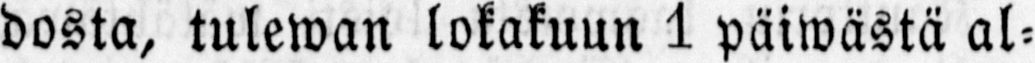dosta, tulewan lokakuun 1 päiwästä al-
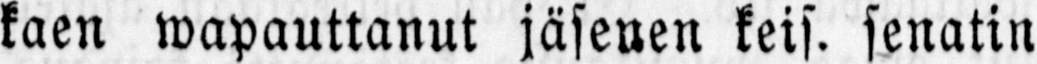kaen wapauttanut jäsenen keis. senatin
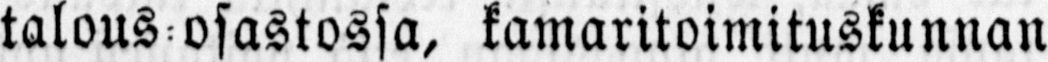talous osastossa, kamaritoimituskunnan
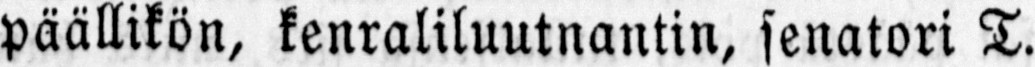päällikön, kenraliluutnantin, senatori T.
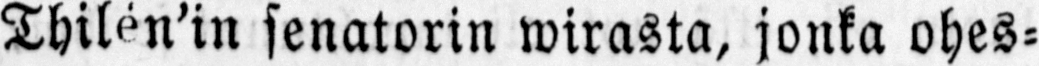Thilén'in senatorin wirasta, jonka ohes-
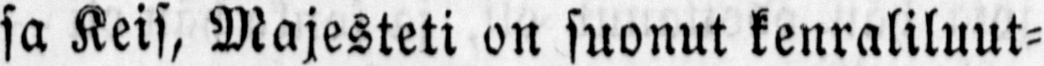sa Keis, Majesteti on suonut kenraliluut-
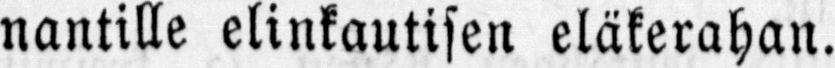nantille elinkautisen eläkerahan.
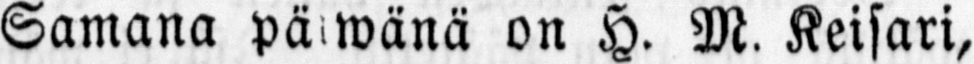Samana päiwänä on H. M. Keisari,
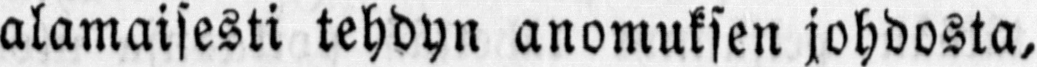alamaisesti tehdyn anomuksen johdosta,
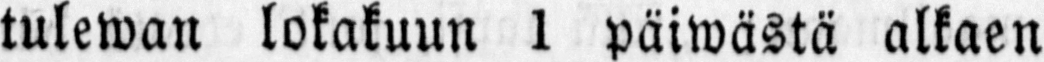tulewan lokakuun 1 päiwästä alkaen
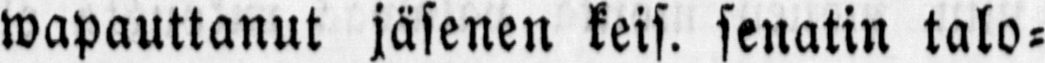wapauttanut jäsenen keis. senatin talo-
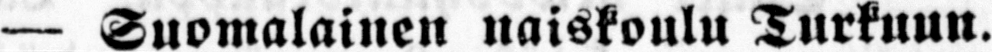— Suomalainen naiskoulu Turkuun.
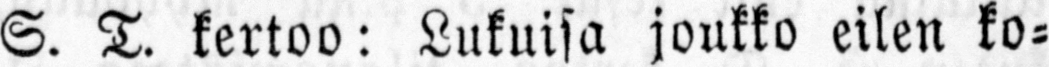S. T. kertoo: Lukuisa joukko eilen ko-
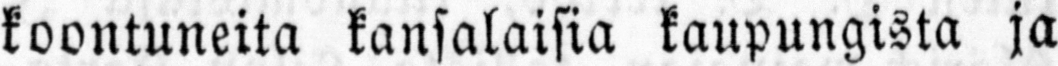koontuneita kansalaisia kaupungista ja
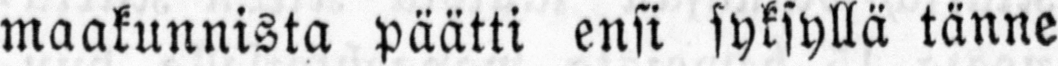maakunnista päätti ensi syksyllä tänne
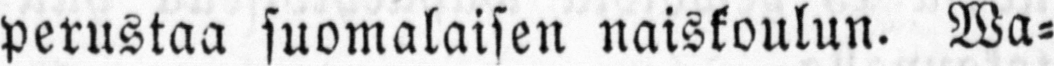perustaa suomalaisen naiskoulun. Wa-
